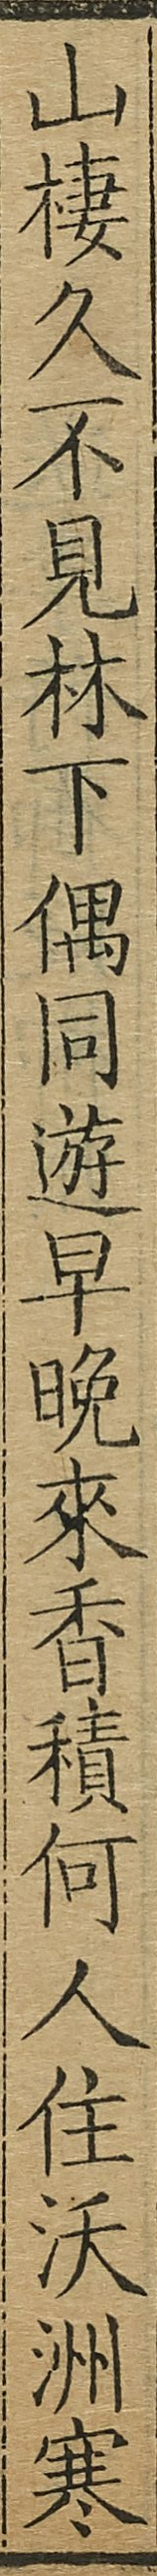山棲久不見林下偶同遊早晚來香積何人住沃洲寒
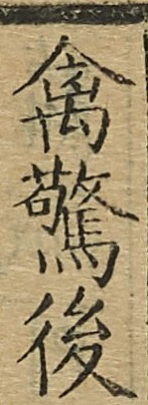禽驚後
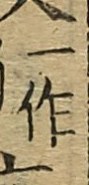一作
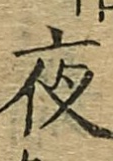夜
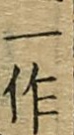一作
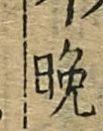晚
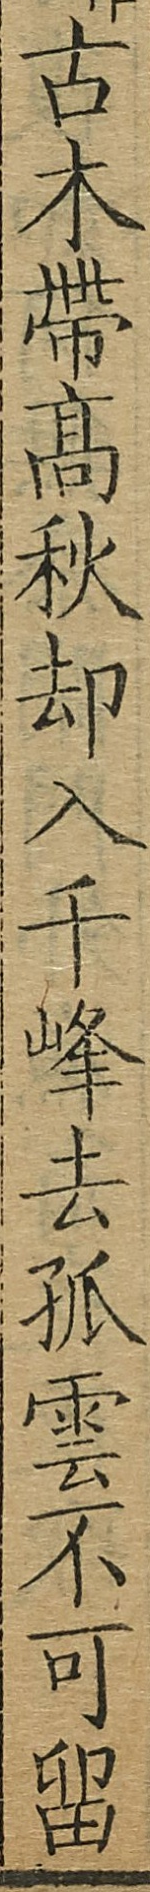古木帶高秋却入千峰去孤雲不可留
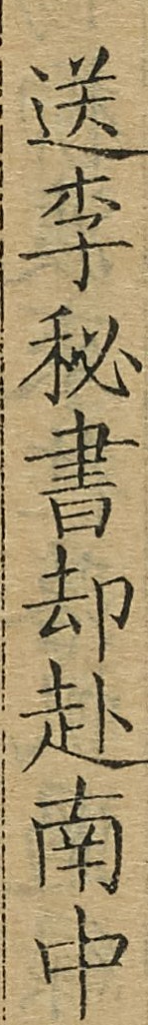送李秘書却赴南中
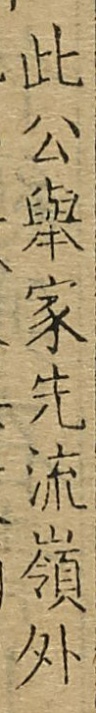此公擧家先流嶺外
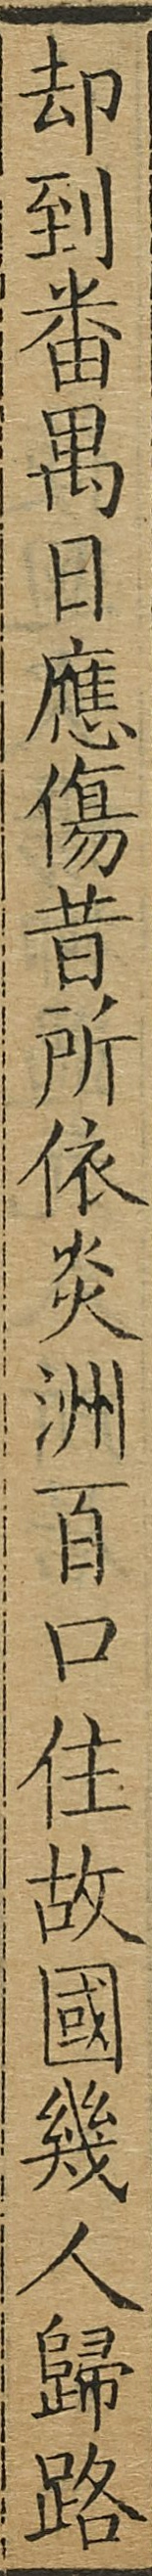却到番禺日應傷昔所依炎洲百口住故國幾人歸路
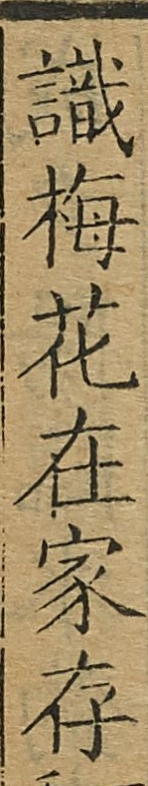識梅花在家存
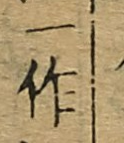一作
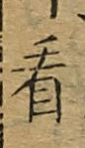看
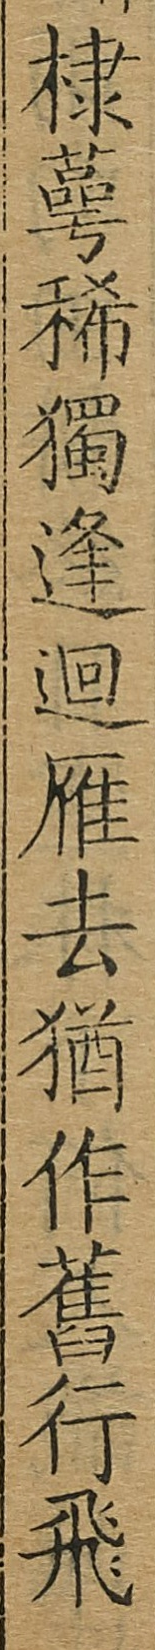棣萼稀獨逢迴雁去猶作舊行飛
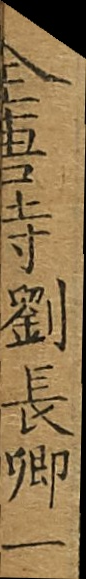全唐詩
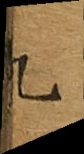九
